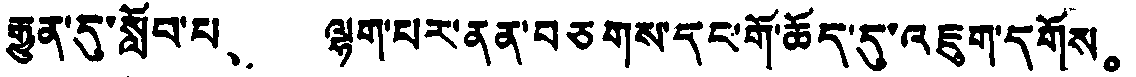རྒྱུན་དུ་སློབ་པ、 ལྷག་པར་ནན་བཅགས་དང་གོ་ཆོད་དུ་འཇུག་དགོས。
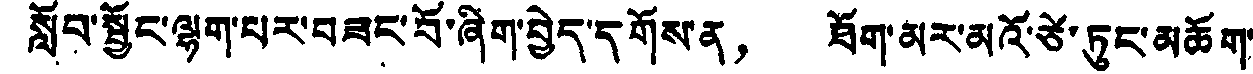སློབ་སྦྱོང་ལྷག་པར་བཟང་བོ་ཞིག་བྱེད་དགོས་ན， ཐོག་མར་མའོ་ཙེ་ཏུང་མཆོག་
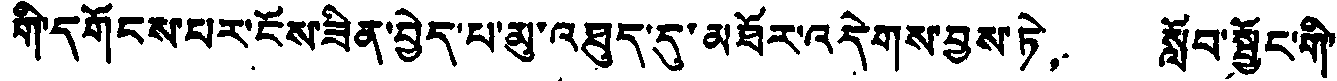གི་དགོངས་པར་ངོས་ཟིན་བྱེད་པ་མུ་འཐུད་དུ་མཐོར་འདེགས་བྱས་ཏེ， སློབ་སྦྱོང་གི་
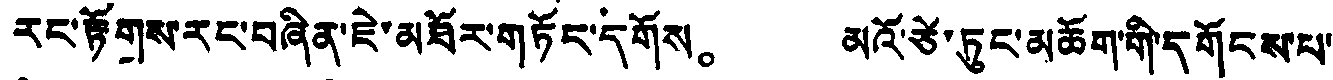རང་རྟོགས་རང་བཞིན་ཇེ་མཐོར་གཏོང་དགོས。 མའོ་ཙེ་ཏུང་མཆོག་གི་དགོངས་པ་
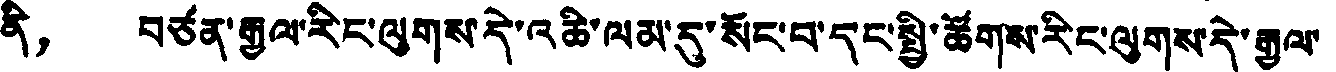ནི， བཙན་རྒྱལ་རིང་ལུགས་དེ་འཆི་ལམ་དུ་སོང་བ་དང་སྤྱི་ཚོགས་རིང་ལུགས་དེ་རྒྱལ་
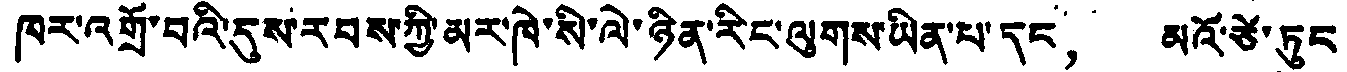ཁར་འགྲོ་བའི་དུས་རབས་ཀྱི་མར་ཁེ་སི་ལེ་ཉིན་རིང་ལུགས་ཡིན་པ་དང， མའོ་ཙེ་ཏུང་
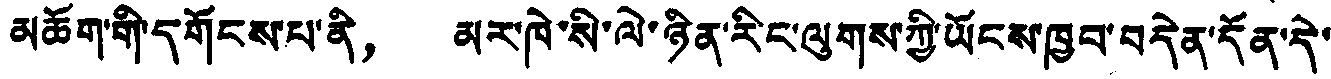མཆོག་གི་དགོངས་པ་ནི， མར་ཁེ་སི་ལེ་ཉིན་རིང་ལུགས་ཀྱི་ཡོངས་ཁྱབ་བདེན་དོན་དེ་
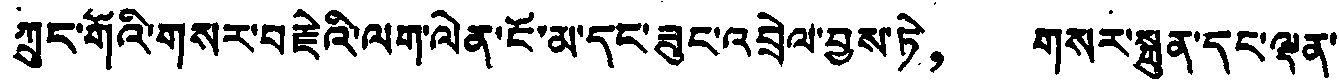ཀྲུང་གོའི་གསར་བརྗེའི་ལག་ལེན་ངོ་མ་དང་ཟུང་འབྲེལ་བྱས་ཏེ， གསར་སྐྲུན་དང་ལྡན་
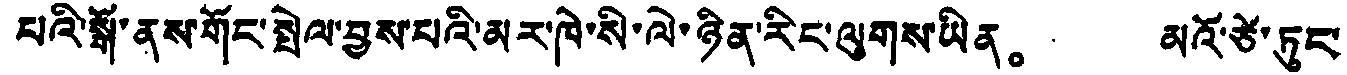པའི་སྒོ་ནས་གོང་སྤེལ་བྱས་པའི་མར་ཁེ་སི་ལེ་ཉིན་རིང་ལུགས་ཡིན。 མའོ་ཙེ་ཏུང་
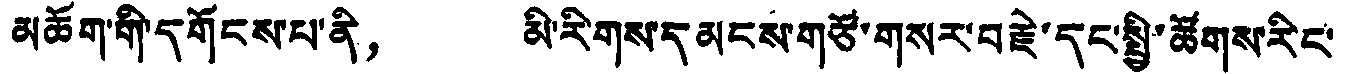མཆོག་གི་དགོངས་པ་ནི， མི་རིགས་དམངས་གཙོ་གསར་བརྗེ་དང་སྤྱི་ཚོགས་རིང་
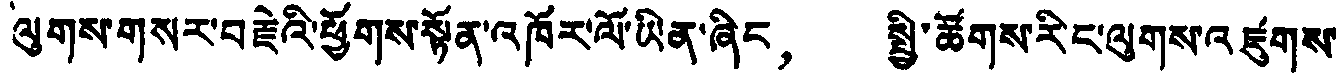ལུགས་གསར་བརྗེའི་ཕྱོགས་སྟོན་འཁོར་ལོ་ཡིན་ཞིང， སྤྱི་ཚོགས་རིང་ལུགས་འཛུགས་
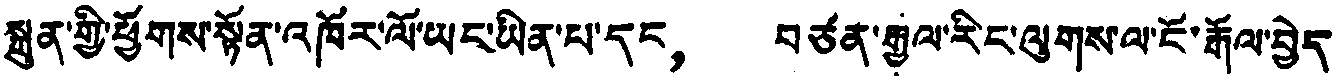སྐྲུན་གྱི་ཕྱོགས་སྟོན་འཁོར་ལོ་ཡང་ཡིན་པ་དང， བཙན་རྒྱལ་རིང་ལུགས་ལ་ངོ་རྒོལ་བྱེད་
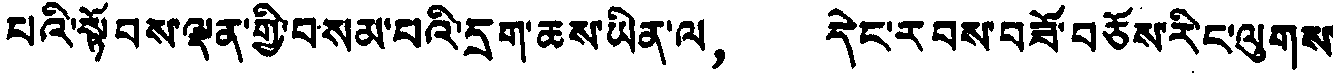པའི་སྟོབས་ལྡན་གྱི་བསམ་པའི་དྲག་ཆས་ཡིན་ལ， དེང་རབས་བཟོ་བཅོས་རིང་ལུགས་
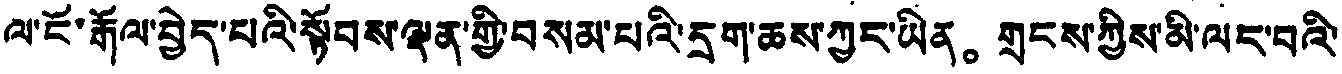ལ་ངོ་རྒོལ་བྱེད་པའི་སྟོབས་ལྡན་གྱི་བསམ་པའི་དྲག་ཆས་ཀྱང་ཡིན。གྲངས་ཀྱིས་མི་ལང་བའི་
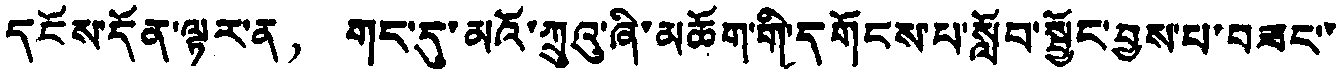དངོས་དོན་ལྟར་ན， གང་དུ་མའོ་ཀྲུའུ་ཞི་མཆོག་གི་དགོངས་པ་སློབ་སྦྱོང་བྱས་པ་བཟང་་
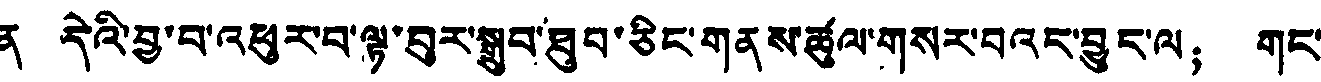ན དེའི་བྱ་བ་འཕུར་བ་ལྟ་བུར་སྒྲུབ་ཐུབ་ཅིང་གནས་ཚུལ་གསར་བའང་བྱུང་ལ； གང་
